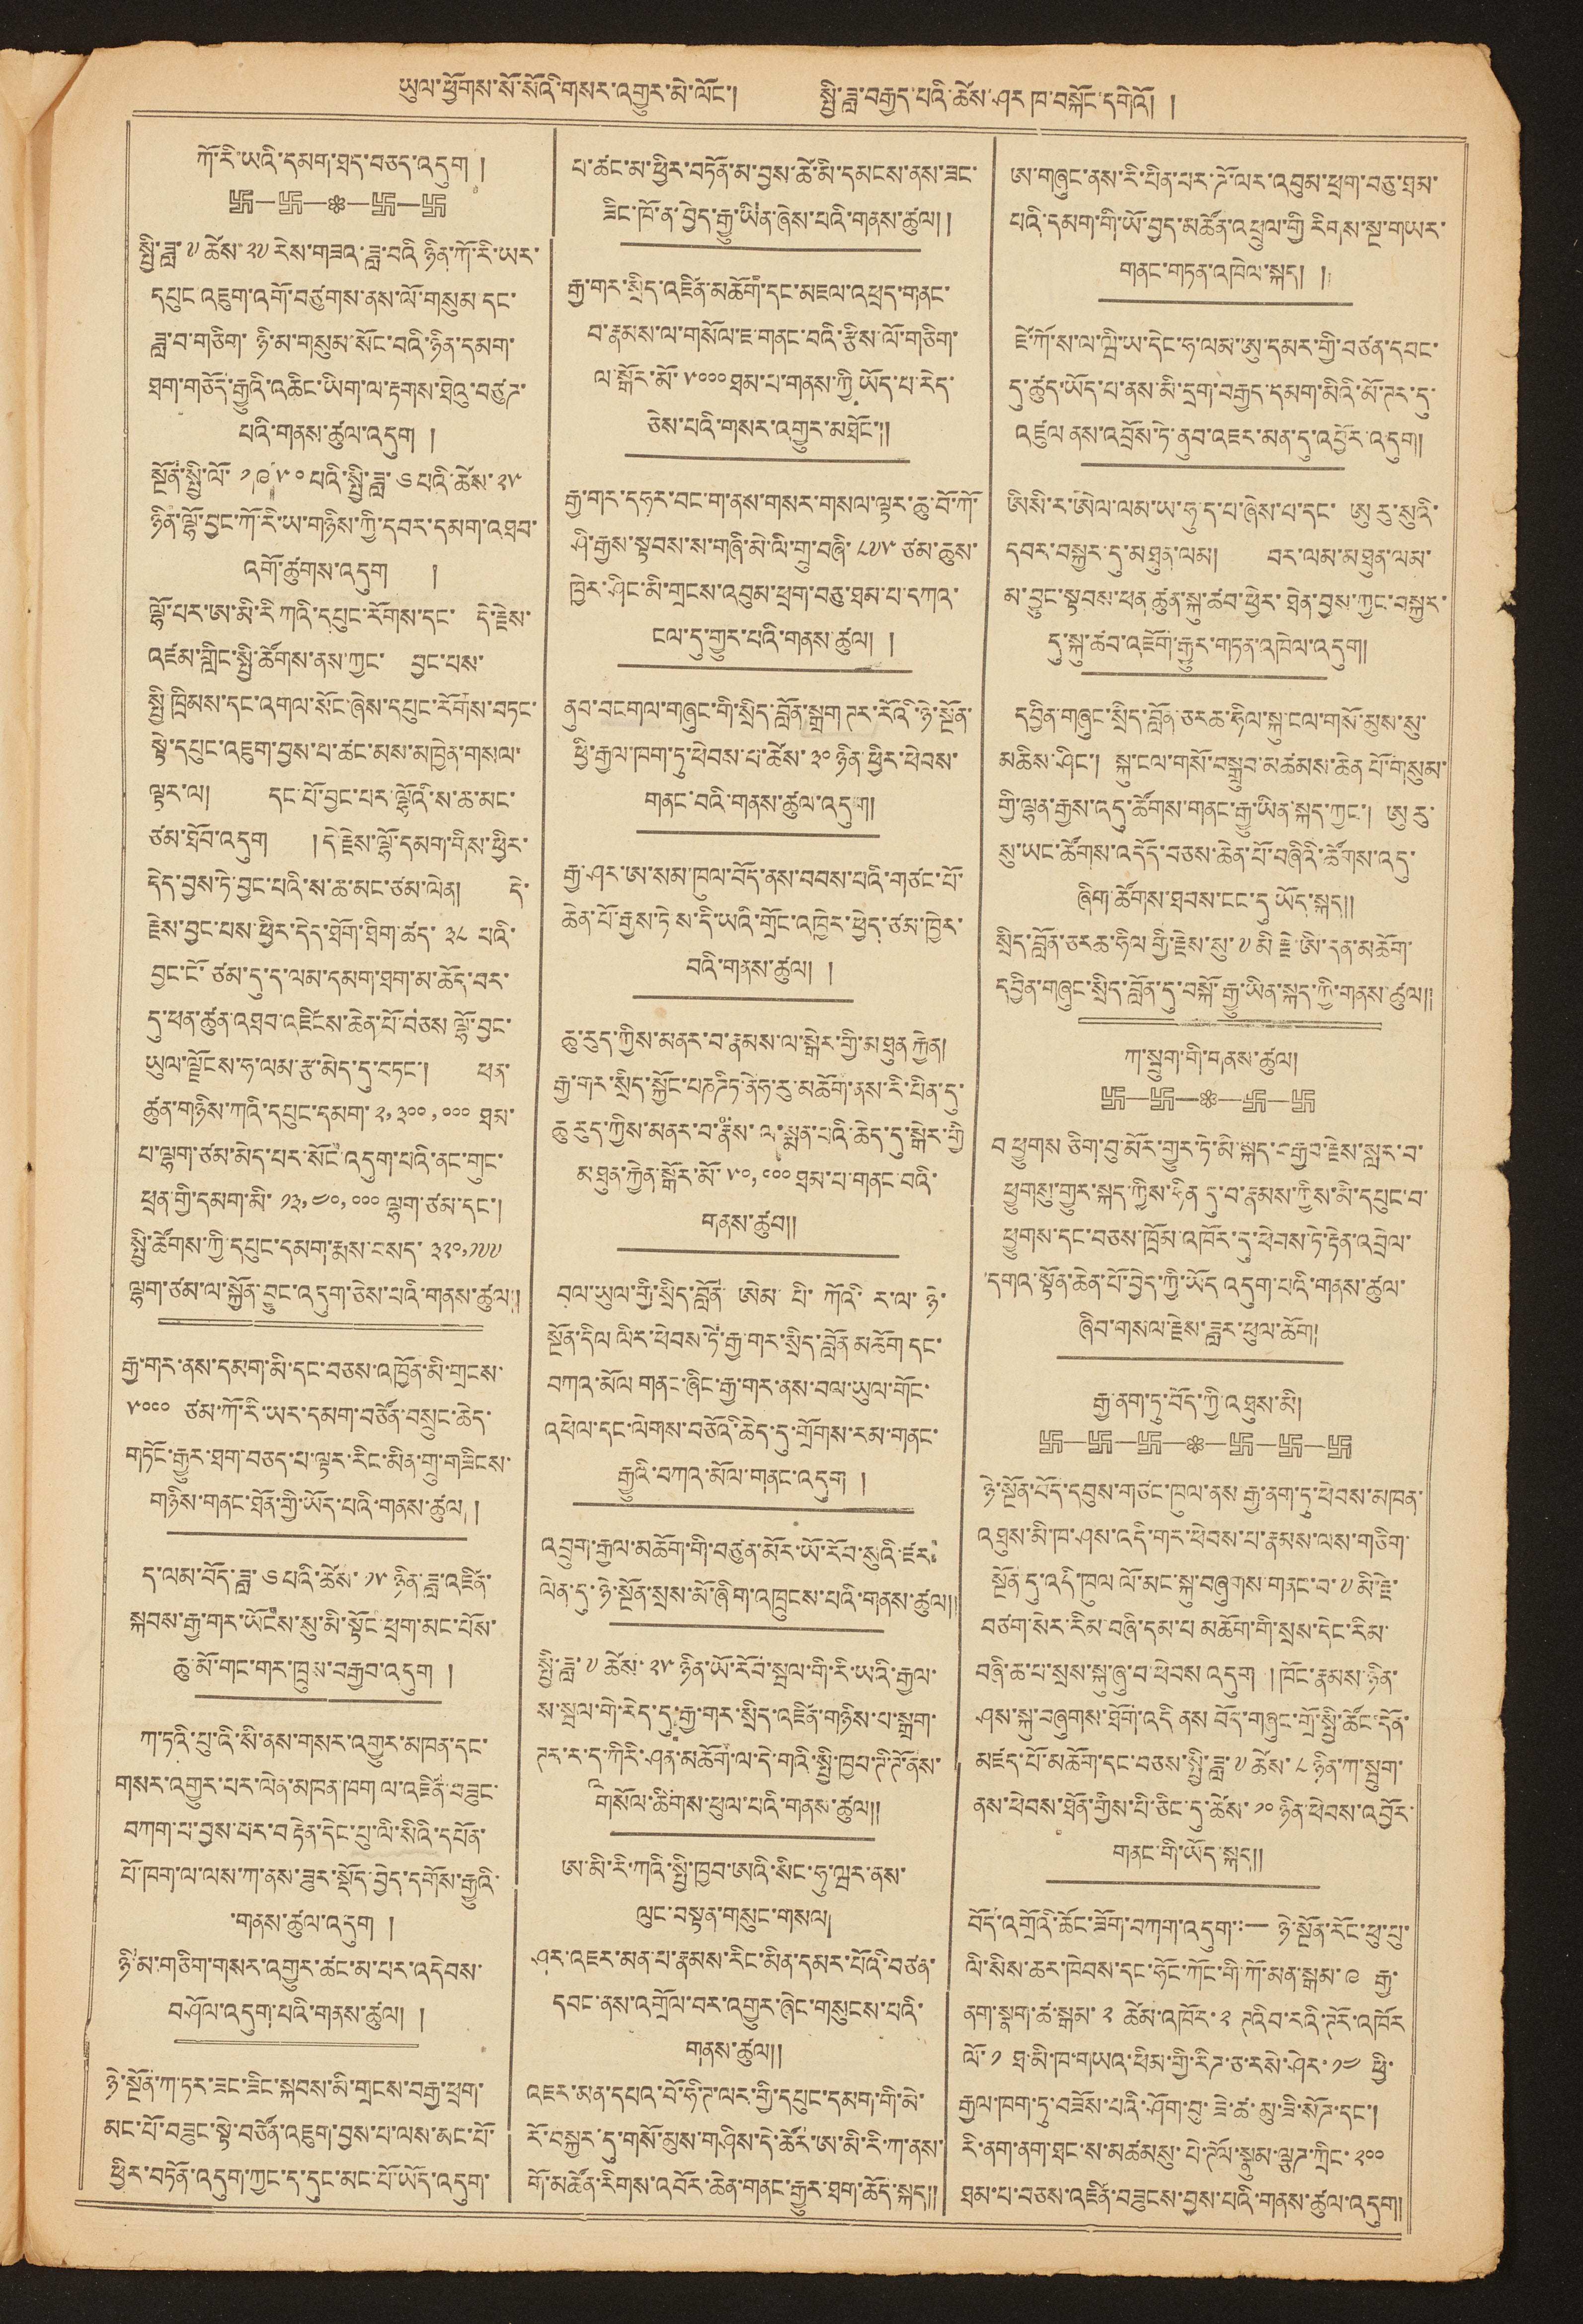ཡུལ་ཕྱོགས་སོ་སོའི་གསར་འགྱུར་མེ་ལོང་། སྤྱི་ཟླ་བརྒྱད་པོའི་ཚེས་ཤར ཁ་བསྐོང་དགེའོ། །
ཀོ་རི་ཡའི་དམག་ཐད་བཅད་འདུག།།
སྤྱི་ཟླ་༧ཚེས༢༧ རེས་གཟའ་ཟླ་བའི ཉིན་ཀོ་རི་ཡར་
དཔུང་འཇུག་འགོ་བཙུགས་ནས་ལོ་གསུམ་དང་
ཟླ་བ་གཅིག་ཉི་མ་གསུམ་སོང་བའི་ཉིན་དམག་
ཐག་གཅོད་རྒྱུའི་འཆིང་ཡིག་ལ་རྟགས་ཐེའུ་བཙུཌ་
པའི་གནས་ཚུལ་འདུག།།
སྔོན་སྤྱི་ལོ་ ༡༩༥༠ པའི་སྤྱི་ཟླ་༦པའི་ཚེས་༢༥
ཉིན་ལྷོ་བྱང་ཀོ་རི་ཡ་གཉིས་ཀྱི་དབར་དམག་འཐབ་
འགོ་ཚུགས་འདུག །
ལྷོ་པར་ཨ་མི་རི་ཀའི་དཔུང་རོགས་དང་ དེ་རྗེས་
འཛམ་གླིང་སྤྱི་ཚོགས་ནས་ཀྱང་ བྱང་པས་
སྤྱི་ཁྲིམས་དང་འགལ་སོང་ཞེས་དཔུང་རོགས་བཏང་
སྟེ་དཔུང་འཇུག་བྱས་ལ་ཚང་མས་མཁྱེན་གསལ་
ལྟར་ལ། དང་པོ་བྱང་པར་ལྷོའི་ས་ཆ་མང་
ཙམ་ཐོབ་འདུག །དེ་རྗེས་ལྷོ་དམག་གིས་ཕྱིར་
དེད་བྱས་ཏེ་བྱང་པའི་ས་ཆ་མང་ཙམ་ལེན། དེ་
རྗེས་བྱང་པས་ཕྱིར་དེད་ཐོག་ཐིག་ཚད་༣༨་པའི་
བྱང་ངོ་ཙམ་དུ་ད་ལམ་དམག་ཐག་མ་ཆོད་བར་
དུ་ཕན་ཚུན་འཐབ་འཛིངས་ཆེན་པོ་བཅས ལྷོ་བྱང་
ཡུལ་ལྗོངས་ཧ་ལམ་རྩ་མེད་དུ་བཏང་། ཕན་
ཚུན་གཉིས་ཀའི་དཔུང་དམག་ ༢,༣༠,༠༠༠ ལྷག་ཙམ་དང་།
པ་ལྷག་ཙམ་མེད་པར་སོང་འདུག་པའི་ནང་གུང་
ཕྲན་གྱི་དམག་མི་ ༡༣,༤༠,༠༠༠ ལྷག་ཙམ་དང་།
སྤྱི་ཚོགས་ཀྱི་དཔུང་དམག་རྨས་བསད་༣༢༠,༡༧༧
ལྷག་ཙམ་ལ་སྐྱོན་བྱུང་འདུག་ཅེས་པའི་གནས་ཚུལ།།
རྒྱ་གར་ནས་དམག་མི་དང་བཅས་འཁྱོན་མི་གྲངས་
༥༠༠༠ ཙམ་ཀོ་རི་ཡར་དམག་བཙོན་བསྲུང་ཆེད་
གཏོང་རྒྱུར་ཐག་བཅད་པ་ལྟར་རིང་མིན་གྲུ་གཟིངས་
གཉིས་གནང་ཐོན་གྱི་ཡོད་པའི་གནས་ཚུལ།།
ད་ལམ་བོད་ཟླ་༦པའི་ཚེས་༡༥ཉིན་ཟླ་འཛིན་
སྐབས་རྒྱ་གར་ཡོངས་སུ་མི་སྟོང་ཕྲག་མང་པོས་
ཆུ་མོ་གང་གར་ཁྲུས་བརྒྱབ་འདུག།།
ཀ་ཏའི་པུ་འི་སི་ནས་གསར་འགྱུར་མཁན་དང་
གསར་འགྱུར་པར་ལེན་མཁན་ཁག ལ་འཛིན་བཟུང་
བཀག་པ་བྱས་པར་བརྟེན་དེང་པུ་ལི་སིའི་དཔོན་
པོ་ཁག་ལ་ལས་ཀ་ནས་ཟུར་སྡོད་བྱེད་དགོས་རྒྱུའི་
གནས་ཚུལ་འདུག།།
ཉི་མ་གཅིག་གསར་འགྱུར་ཚང་མ་པར་འདེབས་
བཤོལ་འདུག་པའི་གནས་ཚུལ། །
ཉེ་སྔོན་ཀ་ཏར་ཟང་ཟིང་སྐབས་མི་གྲངས་བརྒྱ་ཕྲག་
མང་པོ་བཟུང་སྟེ་བཙོན་འཇུག་བྱས་པ་ལས་མང་པོ་
ཕྱིར་བཏོན་འདུག་ཀྱང་ད་དུང་མང་པོ་ཡོད་འདུག་
པ་ཚང་མ་ཕྱིར་བཏོན་མ་བྱས་ཚེ་མི་དམངས་ནས་ཟང་
ཟིང་ཁོ་ན་བྱེད་རྒྱུ་ཡིན་ཞེས་པའི་གནས་ཚུལ།།
རྒྱ་གར་སྲིད་འཛིན་མཆོག་དང་མཇལ་འཕྲད་གནང་
བ་རྣམས་ལ་གསོལ་ཇ་གནང་བའི་རྩིས་ལོ་གཅིག་
ལ་སྒོར་མོ་༥༠༠༠ཐམ་པ་གནས་ཀྱི ཡོད་པ་རེད་
ཅེས་པའི་གསར་འགྱུར་མཐོང་།།
རྒྱ་གར་དཧར་བང་ག་ནས་གསར་གསལ་ལྟར་ཆུ་བོ་ཀོ་
ཤི་རྒྱས་སྟབས་ས་གཞི་མི་ལི་གྲུ་བཞི་ ༨༧༥ ཙམ་ཆུས་
ཁྱེར་ཤིང་མི་གྲངས་འབུམ་ཕྲག་བཅུ་ཐམ་པ་དཀའ་
ངལ་དུ་གྱུར་པའི་གནས་ཚུལ། །
ནུབ་བངགལ་གཞུང་གི་སྲིད་བློན་སྒྲག ཊར་རོའི་ཉེ་སྔོན་
ཕྱི་རྒྱལ་ཁག་ཏུ་ཕེབས་པ་ཚེས་༣༠ཉིན་ཕྱིར་ཕེབས་
གནང་བའི་གནས་ཚུལ་འདུག།།
རྒྱ་ཤར་ཨ་སམ་ཁུལ་བོད་ནས་བབས་པའི་གཙང་པོ་
ཆེན་པོ་རྒྱས་ཏེ ས་དི་ཡའི་གྲོང་འཁྱེར་ཕྱེད་ཙམ་ཁྱེར་
བའི་གནས་ཚུལ།།
ཆུ་རུད་ཀྱིས་མནར་བ་རྣམས་ལ་སྒེར་གྱི་མཐུན རྐྱེན།
རྒྱ་གར་སྲིད་སྐྱོར་པཎ ཌིཏ་ནེཧ་རུ་མཆོག་ནས་རི་པིན་དུ་
ཆུ རུད་ཀྱིས་མནར་བ་རྣཾས་ལ་སྨན་པའི་ཆེད་དུ་སྒེར་གྱི
མཐུན་རྐྱེན་སྒོར་མོ་ ༥༠,༠༠༠ ཐམ་པ་གནང་བའི་
གནས་ཚུབ།།
བལ་ཡུལ་གྱི་སྲིད་བློན་ ཨེམ་པི་ཀོའི་ར་ལ་ཉེ་
སྔོན་དིལ ལིར་ཕེབས་ཏེ་རྒྱ་གར་སྲིད་བློན མཆོག དང་
བཀའ་མོལ གནང་ཞིང་རྒྱ་གར་ནས་བལ་ཡུལ་གོང་
འཕེལ་དང་ལེགས་བཅོའི་ཆེད་དུ་གྲོགས་རམ་གནང་
རྒྱུའི་བཀའ་མོལ་གནང་འདུག །
འབྲུག་རྒྱལ་མཆོག་གི་བཙུན་མོར་ཡོ་རོབ་སུའི་རྫར་
ལེན་དུ་ཉེ་སྔོན་སྲས་མོ་ཞིག་འཁྲུངས་པའི་གནས་ཚུལ།།
སྤྱི་ཟླ་ ༧ ཚེས་ ༢༥ ཨོ་རོབ་སྦལ་གི་རི་ཡའི་རྒྱལ་
ས་སྦལ་གི་རེད་དུ་རྒྱ་གར་སྲིད་འཛིན་གཉིས་པ་སྒྲག་
ཊར་ར་དྰ་ད་ཀིརི་ཤན་མཆོག་ལ་དེ་གའི་སྤྱི་ཁྱབ་ཊི་ཊོ་ནས་
གསོལ་ཚིགས་ཕུལ་པའི་གནས་ཚུལ།།
ཨ་མི་རི་ཀའི་སྤྱི་ཁྱབ་ཨའི་སིང་ཧུ་ཝར་ནས་
ལུང་བསྟན་གསུང་གསལ།
ཤར་འཇར་མན་པ་རྣམས་རིང་མིན་དམར་པོའི་བཙན་
དབང་ནས་འགྲོལ་བར་འགྱུར་ཞེང་གསུངས་པའི་
གནས་ཚུལ།།
འཇར་མན་དཔའ་བོ་ཧི་ཊ་ལར་གྱི་དཔུང་དམག་གི་མི་
རོ་བསྐྱར་དུ་གསོ་མུས་གཤིས་དེ་ཚོར་ཨ་མི་རི་ཀ་ནས་
གོ་མཚོན་རིགས་འབོར་ཆེན་གནང་རྒྱུར་ཐག་ཆོད་སྐད།།
ཨ་གཞུང་ནས་རི་པིན་པར་ཌོ་ལར་འབུམ་ཕྲག་བཅུ་ཐམ་
པའི་དམག་གི་ཡོ་བྱད་མཚོན་འཕྲུལ་གྱི རིགས་སྔ་གཡར་
གནང་གཏན་འཁེལ་སྐད། །
རྫེ་ཀོ་ས་ལ་ཝི་ཡ་དེང་ཧ་ལམ་ཨུ་དམར་གྱི་བཙན་དབང་
དུ་ཚུད་ཡོད་པ་ནས་མི་དྲག་བརྒྱད་དམག་མིའི་མོ་ཊར་དུ་
འཛུལ ནས་འབྲོས་ཏེ་ནུབ་འཇར་མན་དུ་འབྱོར་འདུག།།
ཨིསི་ར་ཨེལ་ལམ་ཡ་ཧུ་ད་པ་ཞེས་པ་དང་ ཨུ་རུ་སུའི་
དབར་བསྐྱར་དུ་མཐུན་ལམ། བར་ལམ་མཐུན་ལམ་
མ་བྱུང་སྟབས་ཕན ཚུལ་སྐུ་ཚབ་ཕྱིར་ཐེན་བྱས་ཀྱང་བསྐྱར་
དུ་སྐུ་ཚབ་འཇོག་རྒྱུར་གཏན་འཁེལ་འདུག།།
དབྱིན་གཞུང་སྲིད་བློན་ཅར་ཆ་ཧིལ་སྐུ་ངལ་གསོ་མུས་སུ་
མཆིས་ཤིང་། སྐུ་ངལ་གསོ་བསྒྲུབ་མཚམས་ཆེན་པོ་གསུམ་
གྱི་ལྷན་རྒྱས་འདུ་ཚོགས་གནང་རྒྱུ་ཡིན་སྐད་ཀྱང་། ཨུརུ་
སུ་ཡང་ཚོགས་འདོད་བཅས་ཆེན་པོ་བཞིའི་ཚོགས་འདུ་
ཞིག་ཚོགས་ཐབས་ངང་དུ་ཡོད་སྐད།།
སྲིད་བློན་ཅར ཆ་ཧིལ གྱི་རྗེས་སུ་༧མི རྗེ་ཨི་དན་མཆོག་
དབྱིན་གཞུང་སྲིད་བློན་དུ་བསྐོ་རྒྱུ་ཡིན་སྐད་ཀྱི་གནས་ཚུལ།།
ཀ་སྦུག་གི་གནས་ཚུལ།
བ ཕྱུགས ཅིག་བུ་མོར་གྱུར་ཏེ་མི་སྐད་བརྒྱབ་རྗེས་སླར་བ་
ཕྱུ གསུ་གྱུར་སྐད་ཀྱིས་ཧིན དུ་བ་རྣམས་ཀྱིས་མི་དཔུང་བ་
ཕྱུགས་དང་བཅས་ཁྲོམ་འཁོར་དུ་ཕེབས་ཏེ་རྟེན་འབྲེལ་
་དགའ་སྟོན་ཆེན་པོ་བྱེད་ཀྱི་ཡོད འདུག་པའི་གནས་ཚུལ་
ཞིབ་གསལ་རྗེས་ཟླར་ཕུལ་ཆོག།
རྒྱ་ནག་རྱ་བོད་ཀྱི་འཐུས་མི།
ཉེ་སྔོན་བོད་དབུས་གཙང་ཁུལ་ནས་རྒྱ་ནག་ཏུ་ཕེབས་མཁན་
འཐུས་མི་ཁ་ཤས་འདི་གར་ཕེབས་པ་རྣམས་ལས་གཅིག་
སྔོན་དུ་འདི་ཁུལ ལོ་མང་སྐུ་བཞུགས་གནང་བ་༧མི་རྗེ་
བཙག་སེར་རིམ་བཞི་དམ་པ མཆོག་གི་སྲས་དེང་རིམ་
བཞི་ཆ་པ་སྲས་སྐུ་ཞུ་བ་ཕེབས་འདུག །ཁོང་རྣམས་ཉིན་
ཤས་སྐུ་བཞུགས་ཐོག་འདི ནས་བོད་གཞུང་གྲོ་སྤྱི་ཚོང་དོན་
མཛད་པོ་མཆོག་དང་བཅས་སྤྱི་ཟླ་༧ཚེས ༨ ཉིན་ཀ་སྦུག་
ནས་ཕེབས་ཐོན་གྱིས་པི་ཅིང་དུ་ཚེས་ ༡༠ ཉིན་ཕེབས་འབྱོར་
གནང་གི་ཡོད་སྐད།།
བོད་འགྲོའི་ཚོང་ཟོག་བཀག་འདུག་:— ཉེ་སྔོན་རོང་ཕུ་པུ་
ལི་སིས་ཆར་ཁེབས་དང་ཧོར་ཀོང་གི་ཀོ་མན་སྒམ་༩ རྒྱ་
ནག་སྣག་ཚ་སྒམ་ ༢ ཚེམ་འཁོར་ ༢ ཊའིབ་རའི་ཊོར་འཁོར
ལོ་ ༡ ཐ་མི་ཁ་གཡའ་ཕིམ་གྱི་རིཌ་ཅ་རསེ་ཤེར་༡༤ ཕྱི་
རྒྱལ་ཁག་ཏུ་བཟོས་པའི་ཤོག་བུ་ཟེ་ཚ་མུ་ཟི་སོཌ་དང་།
རི་ནག་ནག་ཐང་ས་མཚམསུ་པེ་ཊོལ་སྣུམ་ལྕཌ་ཀྲིང་ ༢༠༠
ཐམ་པ་བཅས་འཛིན་བཟུངས་བྱས་པའི་གནས་ཚུལ་འདུག།།
